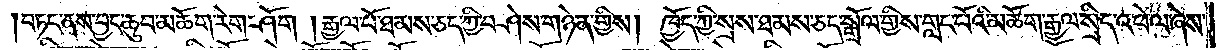།བཏང་ནས་བྱང་ཆུབ་མཆོག་རེག་ཤོག །རྒྱལ་པོ་ཐམས་ཅད་ཀྱི་བཤེས་གཉེན་གྱིས། ཁྱོད་ཀྱི་སྲས་ཐམས་ཅད་སྒྲོལ་གྱིས་གླང་པོའི་མཆོག་རྒྱལ་སྲིད་འཕེལ་ཞེས་
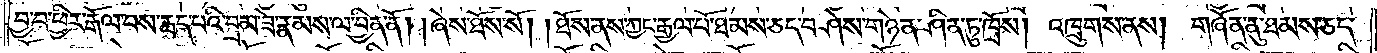བྱ་བ་ཕྱིར་རྒོལ་བས་རྦད་པའི་བྲམ་ཟེ་རྣམས་ལ་སྦྱིན་ནོ། །ཞེས་ཐོས་སོ། །ཐོས་ནས་ཀྱང་རྒྱལ་པོ་ཐམས་ཅད་བཤེས་གཉེན་ཤིན་ཏུ་ཁྲོས། འཁྲུགས་ནས། གཞོན་ནུ་ཐམས་ཅད་
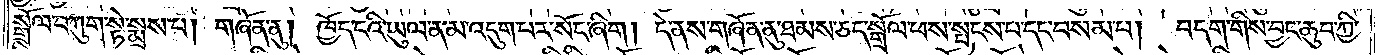སྒྲོལ་བཀུག་སྟེ་སྨྲས་པ། གཞོན་ནུ། ཁྱོད་ངའི་ཡུལ་ན་མ་འདུག་པར་སོང་ཞིག། དེ་ནས་གཞོན་ནུ་ཐམས་ཅད་སྒྲོལ་ཕས་སྤངས་པ་དང་བསམ་པ། བདག་གིས་བྱང་ཆུབ་ཀྱི་
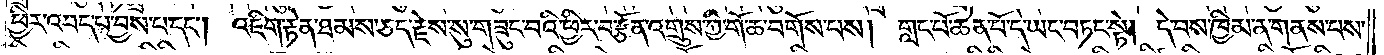ཕྱིར་འབད་པ་བྱས་པ་དང༌། འཇིག་རྟེན་ཐམས་ཅད་རྗེས་སུ་གཟུང་བའི་ཕྱིར་བརྩོན་འགྲུས་ཀྱི་གོ་ཆ་བགོས་པས། གླང་པོ་ཆེན་པོ་དེ་ཡང་བཏང་སྟེ། དེ་བས་ཁྱིམ་ན་གནས་པས་
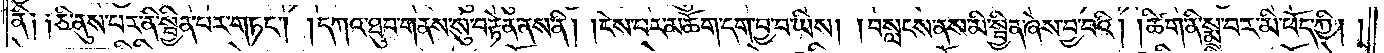ནི༑ ༑ཅི་ནུས་པར་ནི་སྦྱིན་པར་གཏང༌། །དཀའ་ཐུབ་གནས་སུ་བརྟེན་ནས་ནི། །ངེས་པར་མཆོག་དག་བྱ་བ་ཡིས། །བསླངས་ནས་མི་སྦྱིན་ཞེས་བྱ་བའི། །ཚིག་ནི་སྨྲ་བར་མི་ཕོད་ཀྱི། །
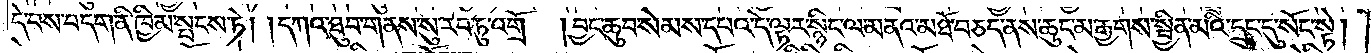དེ་བས་བདག་ནི་ཁྱིམ་སྤངས་ཏེ། །དཀའ་ཐུབ་གནས་སུ་རབ་ཏུ་འགྲོ། །བྱང་ཆུབ་སེམས་དཔའ་དེ་ལྟར་སྙིང་ལ་མནའ་མཐོ་བཅད་ནས་ཆུང་མ་རྒྱགས་སྦྱིན་མའི་དྲུང་དུ་སོང་སྟེ།
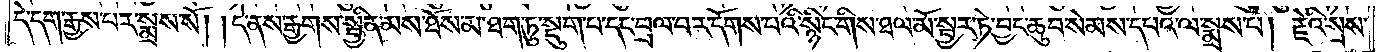དེ་དག་རྒྱས་པར་སྨྲས་སོ། །དེ་ནས་རྒྱགས་སྦྱིན་མས་ཐོས་མ་ཐག་ཏུ་སྡུག་པ་དང་བྲལ་བར་དོགས་པའི་སྙིང་གིས་ཐལ་མོ་སྦྱར་ཏེ་བྱང་ཆུབ་སེམས་དཔའ་ལ་སྨྲས་པ། རྗེའི་སྲས་
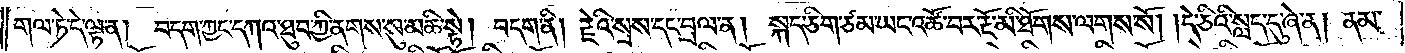གལ་ཏེ་དེ་ལྟ་ན། བདག་ཀྱང་དཀའ་ཐུབ་ཀྱི་ནགས་སུ་མཆི་སྟེ། བདག་ནི། རྗེའི་སྲས་དང་བྲལ་ན། སྐད་ཅིག་ཙམ་ཡང་འཚོ་བར་རྔོ་མི་ཐོགས་ལགས་སོ། །དེ་ཅིའི་སླད་དུ་ཞེ་ན། ནམ་
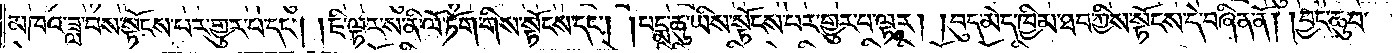མཁའ་ཟླ་བས་སྟོངས་པར་གྱུར་པ་དང༌། །ཇི་ལྟར་ས་ནི་ལོ་ཏོག་གིས་སྟོངས་དང༌། །པདྨ་ཆུ་ཡིས་སྟོངས་པར་གྱུར་པ་ལྟར། །བུད་མེད་ཁྱིམ་ཐབ་ཀྱིས་སྟོངས་དེ་བཞིན་ནོ། །བྱང་ཆུབ་
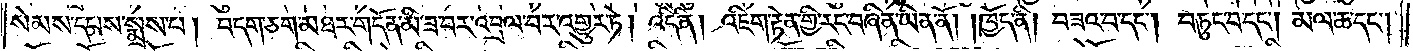སེམས་དཔས་སྨྲས་པ། བདག་ཅག་མཐར་གདོན་མི་ཟ་བར་འབྲལ་བར་འགྱུར་ཏེ། འདི་ནི། འཇིག་རྟེན་གྱི་རང་བཞིན་ཡིན་ནོ། །ཁྱོད་ནི། བཟའ་བ་དང༌། བཏུང་བ་དང༌། མལ་ཆ་དང༌།
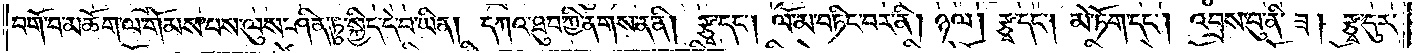བགོ་བ་མཆོག་ལ་གོམས་པས་ལུས་ཤིན་ཏུ་སྐྱིད་དེ་བ་ཡིན། དཀའ་ཐུབ་ཀྱི་ནགས་ན་ནི། རྩྭ་དང༌། ལོ་མ་བཏིང་བར་ནི། ཉལ། རྩྭ་དང༌། མེ་ཏོག་དང༌། འབྲས་བུ་ནི་ཟ། རྩྭ་དུར་
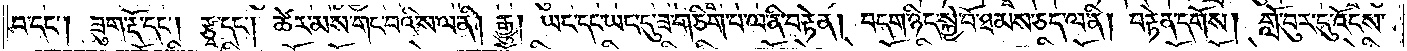བ་དང༌། ཟུག་རྔོ་དང༌། རྩྭ་དང༌། ཚེར་མས་གང་བའི་ས་ལ་ནི། རྒྱུ། ཡང་དང་ཡང་དུ་ཟ་གཅིག་པ་ལ་ནི་བརྟེན། བདག་ཉིད་སྐྱེ་བོ་ཐམས་ཅད་ལ་ནི། བརྟེན་དགོས། གློ་བུར་དུ་འོངས་
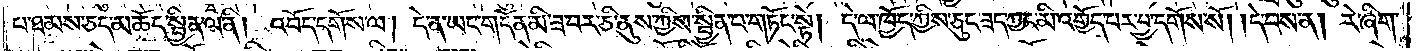པ་ཐམས་ཅད་མཆོད་སྦྱིན་ལ་ནི། འབོད་དགོས་ལ། དེ་ན་ཡང་གདོན་མི་ཟ་བར་ཅི་ནུས་ཀྱིས་སྦྱིན་པ་གཏོང་སྟེ། དེ་ལ་ཁྱོད་ཀྱིས་ཅུང་ཟད་ཀྱང་མི་འགྱོད་པར་བྱ་དགོས་སོ། །དེ་བས་ན། རེ་ཞིག་
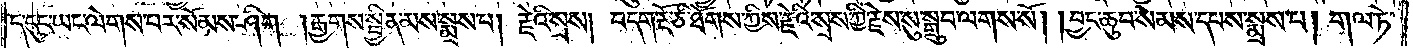ད་དུང་ཡང་ལེགས་པར་སོམས་ཤིག །རྒྱགས་སྦྱིན་མས་སྨྲས་པ། རྗེའི་སྲས། བདག་རྡོ་ཅི་ཐོགས་ཀྱིས་རྗེའི་སྲས་ཀྱི་རྗེས་སུ་སྒྲུབ་ལགས་སོ། །བྱང་ཆུབ་སེམས་དཔས་སྨྲས་པ། གལ་ཏེ་
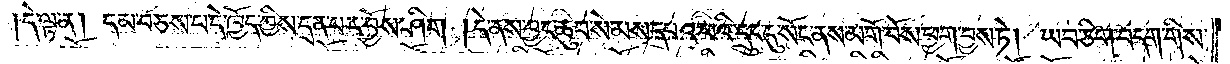དེ་ལྟ་ན། དམ་བཅས་པ་དེ་ཁྱོད་ཀྱིས་དྲན་པར་བྱོས་ཤིག །དེ་ནས་བྱང་ཆུབ་སེམས་དཔའ་ཕའི་དྲུང་དུ་སོང་ནས་མགོ་བོས་ཕྱག་བྱས་ཏེ། ཡབ་ཅིག་བདག་གིས་
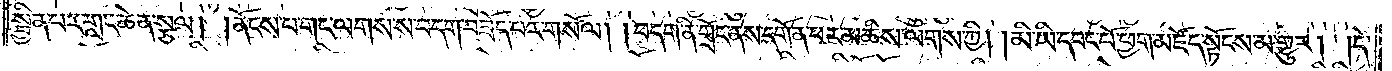སྦྱིན་པར་གླང་ཆེན་སྩལ། །ནོངས་པ་གང་ལགས་ས་བདག་བཟོད་པར་གསོལ། །བདག་ནི་གྲོང་ནས་དགོན་པར་མཆིས་ལགས་ཀྱི། །མི་ཡི་དབང་པོ་ཕྱག་མཛོད་སྟོངས་མ་གྱུར། །དེ་
